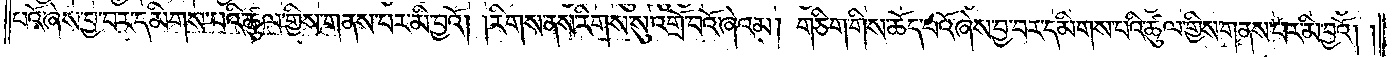པའོ་ཞེས་བྱ་བར་དམིགས་པའི་ཚུལ་གྱིས་གནས་པར་མི་བྱའོ། །རིགས་ནས་རིགས་སུ་འགྲོ་བའོ་ཞེ་འམ། གཅིག་གིས་ཆོད་པའོ་ཞེས་བྱ་བར་དམིགས་པའི་ཚུལ་གྱིས་གནས་པར་མི་བྱའོ། །
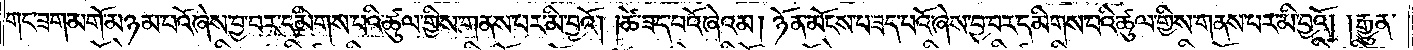གང་ཟག་མགོ་མཉམ་པའོ་ཞེས་བྱ་བར་དམིགས་པའི་ཚུལ་གྱིས་གནས་པར་མི་བྱའོ། །ཚེ་ཟད་པའོ་ཞེ་འམ། ཉོན་མོངས་པ་ཟད་པའོ་ཞེས་བྱ་བར་དམིགས་པའི་ཚུལ་གྱིས་གནས་པར་མི་བྱའོ། །རྒྱུན་
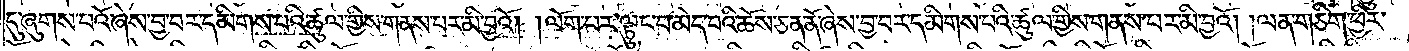དུ་ཞུགས་པའོ་ཞེས་བྱ་བར་དམིགས་པའི་ཚུལ་གྱིས་གནས་པར་མི་བྱའོ། །ལོག་པར་ལྟུང་བ་མེད་པའི་ཆོས་ཅན་ནོ་ཞེས་བྱ་བར་དམིགས་པའི་ཚུལ་གྱིས་གནས་པར་མི་བྱའོ། །ལན་ཅིག་ཕྱིར་
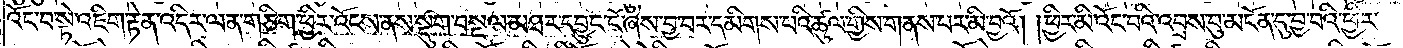འོང་བ་སྟེ་འཇིག་རྟེན་འདིར་ལན་ཅིག་ཕྱིར་འོངས་ནས་སྡུག་བསྔལ་མཐར་དབྱུང་ངོ་ཞེས་བྱ་བར་དམིགས་པའི་ཚུལ་གྱིས་གནས་པར་མི་བྱའོ། །ཕྱིར་མི་འོང་བའི་འབྲས་བུ་མངོན་དུ་བྱ་བའི་ཕྱིར་
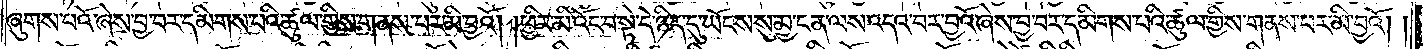ཞུགས་པའོ་ཞེས་བྱ་བར་དམིགས་པའི་ཚུལ་གྱིས་གནས་པར་མི་བྱའོ། ། ཕྱིར་མི་འོང་བ་སྟེ་དེ་ཉིད་དུ་ཡོངས་སུ་མྱ་ངན་ལས་འདའ་བར་བྱའོ་ཞེས་བྱ་བར་དམིགས་པའི་ཚུལ་གྱིས་གནས་པར་མི་བྱའོ། །
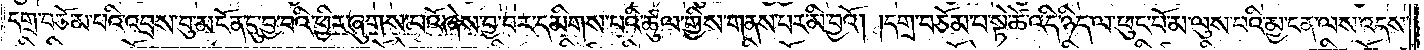དགྲ་བཅོམ་པའི་འབྲས་བུ་མངོན་དུ་བྱ་བའི་ཕྱིར་ཞུགས་པའོ་ཞེས་བྱ་བར་དམིགས་པའི་ཚུལ་གྱིས་གནས་པར་མི་བྱའོ། །དགྲ་བཅོམ་པ་སྟེ་ཚེ་འདི་ཉིད་ལ་ཕུང་པོ་མ་ལུས་པའི་མྱ་ངན་ལས་འདས་
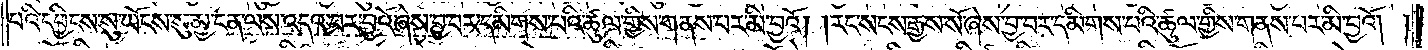པའི་དབྱིངས་སུ་ཡོངས་སུ་མྱ་ངན་ལས་འདའ་བར་བྱའོ་ཞེས་བྱ་བར་དམིགས་པའི་ཚུལ་གྱིས་གནས་པར་མི་བྱའོ། །རང་སངས་རྒྱས་སོ་ཞེས་བྱ་བར་དམིགས་པའི་ཚུལ་གྱིས་གནས་པར་མི་བྱའོ། །
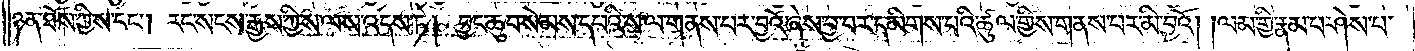ཉན་ཐོས་ཀྱི་ས་ད་། རང་སངས་རྒྱས་ཀྱི་ས་ལས་འདས་ཏེ། བྱང་ཆུབ་སེམས་དཔའི་ས་ལ་གནས་པར་བྱའོ་ཞེས་བྱ་བར་དམིགས་པའི་ཚུལ་གྱིས་གནས་པར་མི་བྱའོ། །ལམ་གྱི་རྣམ་པ་ཤེས་པ་
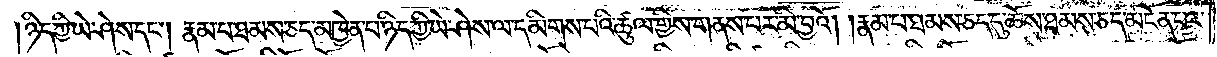ཉིད་ཀྱི་ཡེ་ཤེས་དང༌། རྣམ་པ་ཐམས་ཅད་མཁྱེན་པ་ཉིད་ཀྱི་ཡེ་ཤེས་ལ་དམིགས་པའི་ཚུལ་གྱིས་གནས་པར་མི་བྱའོ། །རྣམ་པ་ཐམས་ཅད་དུ་ཆོས་ཐམས་ཅད་མངོན་པར་
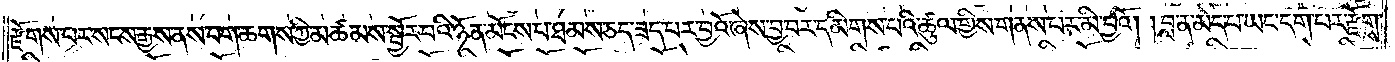རྫོགས་པར་སངས་རྒྱས་ནས་བག་ཆགས་ཀྱི་མཚམས་སྦྱོར་བའི་ཉོན་མོངས་པ་ཐམས་ཅད་ཟད་པར་བྱའོ་ཞེས་བྱ་བར་དམིགས་པའི་ཚུལ་གྱིས་གནས་པར་མི་བྱའོ། །བླ་ན་མེད་པ་ཡང་དག་པར་རྫོགས་
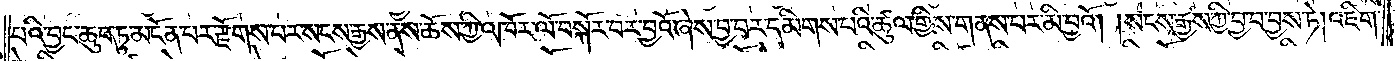པའི་བྱང་ཆུབ་ཏུ་མངོན་པར་རྫོགས་པར་སངས་རྒྱས་ནས་ཆོས་ཀྱི་འཁོར་ལོ་བསྐོར་བར་བྱའོ་ཞེས་བྱ་བར་དམིགས་པའི་ཚུལ་གྱིས་གནས་པར་མི་བྱའོ། །སངས་རྒྱས་ཀྱི་བྱ་བ་བྱས་ཏེ། འཇིག་
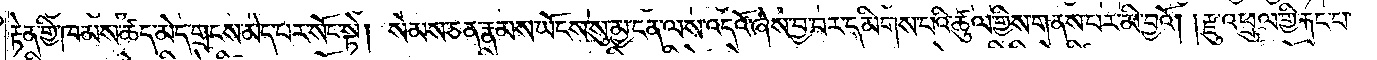རྟེན་གྱི་ཁམས་ཚད་མེད་གྲངས་མེད་པར་སོང་སྟེ། སེམས་ཅན་རྣམས་ཡོངས་སུ་མྱ་ངན་ལས་འདའོ་ཞེས་བྱ་བར་དམིགས་པའི་ཚུལ་གྱིས་གནས་པར་མི་བྱའོ། །རྫུ་འཕྲུལ་གྱི་རྐང་པ་
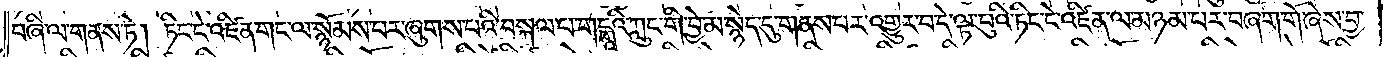བཞི་ལ་གནས་ཏེ། ཏིང་ངེ་འཛིན་གང་ལ་སྙོམས་པར་ཞུགས་པའི་བསྐལ་པ་གངྒཱའི་ཀླུང་གི་བྱ་མ་སྙེད་དུ་གནས་པར་འགྱུར་བ་དེ་ལྟར་བུའི་ཏིང་ངེ་འཛིན་ལ་མཉམ་པར་བཞག་གོ་ཞེས་བྱ་
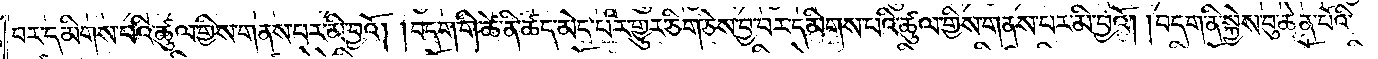བར་དམིགས་པའི་ཚུལ་གྱིས་གནས་པར་མི་བྱའོ། །བདག་གི་ཚེ་ནི་ཚད་མེད་པར་གྱུར་ཅིག་ཅེས་བྱ་བར་དམིགས་པའི་ཚུལ་གྱིས་གནས་པར་མི་བྱའོ། །བདག་ནི་སྐྱེས་བུ་ཆེན་པོའི་
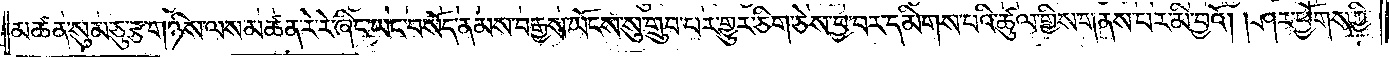མཚན་སུམ་ཅུ་རྩ་གཉིས་ལས་མཚན་རེ་རེ་ཞིང་ཡང་བསོད་ནམས་བརྒྱས་ཡོངས་སུ་གྲུབ་པར་གྱུར་ཅིག་ཅེས་བྱ་བར་དམིགས་པའི་ཚུལ་གྱིས་གནས་པར་མི་བྱའོ། །ཤར་ཕྱོགས་ཀྱི་
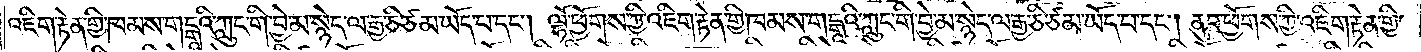འཇིག་རྟེན་གྱི་ཁམས་གངྒཱའི་ཀླུང་གི་བྱེ་མ་སྙེད་ལ་རྒྱ་ཅི་ཙམ་ཡོད་པ་དང༌། ལྷོ་ཕྱོགས་ཀྱི་འཇིག་རྟེན་གྱི་ཁམས་གངྒཱའི་ཀླུང་གི་བྱེ་མ་སྙེད་ལ་རྒྱ་ཅི་ཙམ་ཡོད་པ་དང༌། ནུབ་ཕྱོགས་ཀྱི་འཇིག་རྟེན་གྱི་
